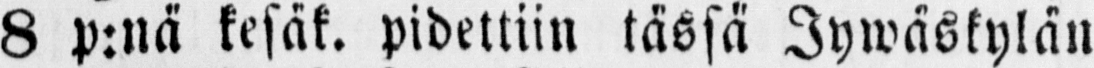8 p:nä kesäk. pidettiin tässä Jywäskylän
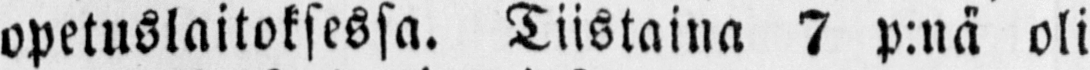opetuslaitoksessa. Tiistaina 7 p:nä oli
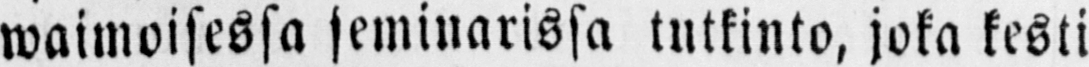waimoisessa seminarissa tutkinto, joka kesti
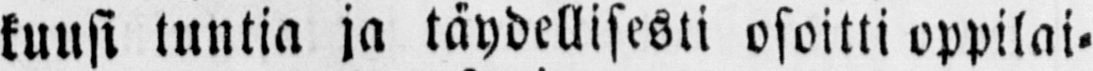kuusi tuntia ja täydellisesti osoitti oppilai-
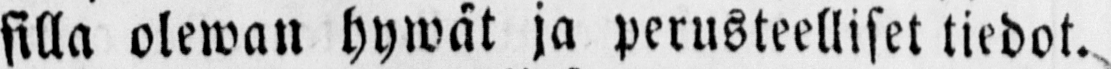silla olewan hywät ja perusteelliset tiedot.
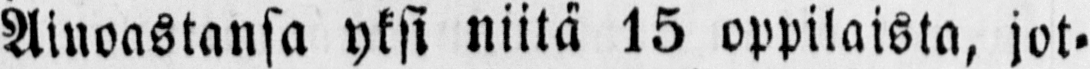Ainoastansa yksi niitä 15 oppilaista, jot-
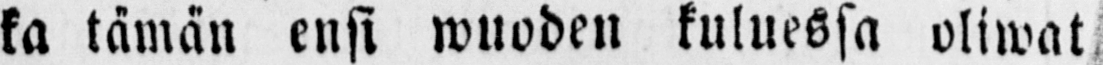ka tämän ensi wuoden kuluessa oliwat
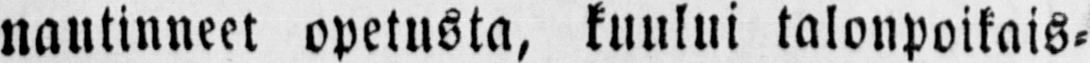nautinneet opetusta, kuului talonpoikais-
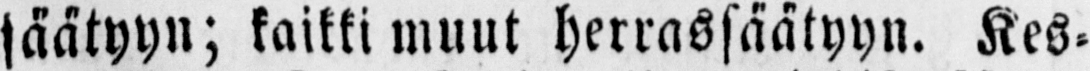säätyyn; kaikki muut herrassäätyyn. Kes-
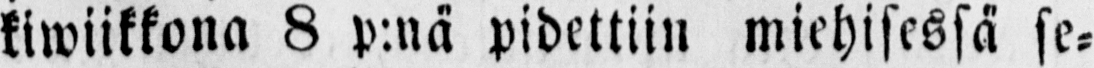kiwiikkona 8 p:nä pidettiin miehisessä se-
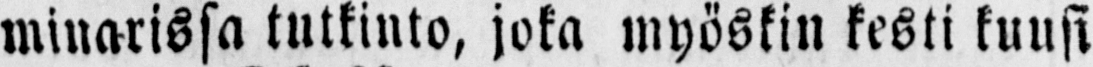minarissa tutkinto, joka myöskin kesti kuusi
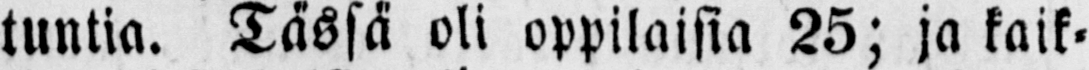tuntia. Tässä oli oppilaisia 25; ja kaik-
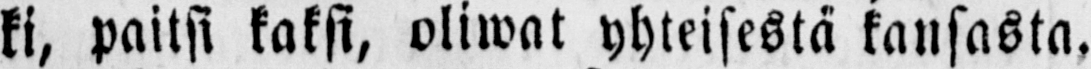ki, paitsi kaksi, oliwat yhteisestä kansasta,
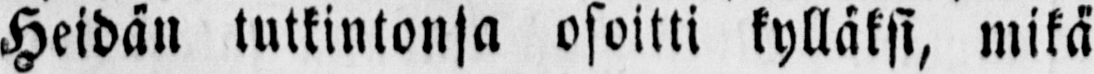Heidän tutkintonsa osoitti kylläksi, mikä
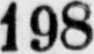198
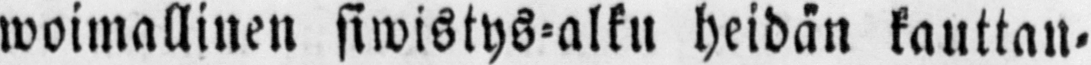woimallinen siwistys-alku heidän kauttan-
